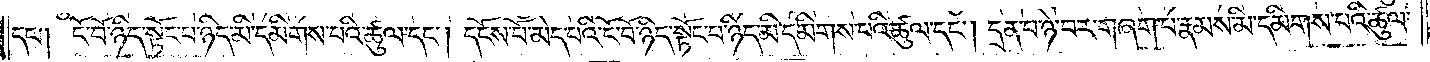དང༌། ངོ་བོ་ཉིད་སྟོང་པ་ཉིད་མི་དམིགས་པའི་ཚུལ་དང༌། དངོས་པོ་མེད་པའི་ངོ་བོ་ཉིད་སྟོང་པ་ཉིད་མི་དམིགས་པའི་ཚུལ་དང༌། དྲན་པ་ཉེ་བར་གཞག་པ་རྣམས་མི་དམིགས་པའི་ཚུལ་
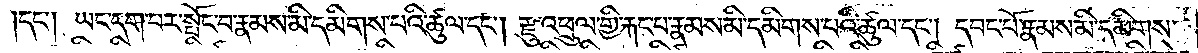དང༌། ཡང་དག་པར་སྤོང་བ་རྣམས་མི་དམིགས་པའི་ཚུལ་དང༌། རྫུ་འཕྲུལ་གྱི་རྐང་པ་རྣམས་མི་དམིགས་པའི་ཚུལ་དང༌། དབང་པོ་རྣམས་མི་དམིགས་
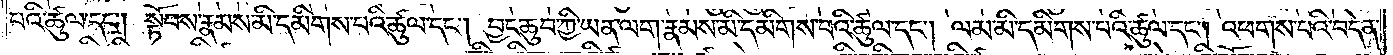པའི་ཚུལ་དང༌། སྟོབས་རྣམས་མི་དམིགས་པའི་ཚུལ་དང༌། བྱང་ཆུབ་ཀྱི་ཡན་ལག་རྣམས་མི་དམིགས་པའི་ཚུལ་དང༌། ལམ་མི་དམིགས་པའི་ཚུལ་དང༌། འཕགས་པའི་བདེན་
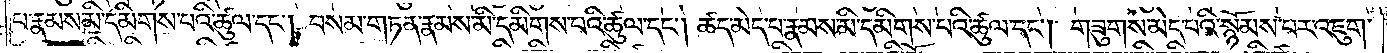པ་རྣམས་མི་དམིགས་པའི་ཚུལ་དང༌། བསམ་གཏན་རྣམས་མི་དམིགས་པའི་ཚུལ་དང༌། ཚད་མེད་པ་རྣམས་མི་དམིགས་པའི་ཚུལ་དང༌། གཟུགས་མེད་པའི་སྙོམས་པར་འཇུག་
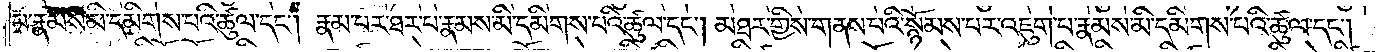པ་རྣམས་མི་དམིགས་པའི་ཚུལ་དང༌། རྣམ་པར་ཐར་པ་རྣམས་མི་དམིགས་པའི་ཚུལ་དང༌། མཐར་གྱིས་གནས་པའི་སྙོམས་པར་འཇུག་པ་རྣམས་མི་དམིགས་པའི་ཚུལ་དང༌།
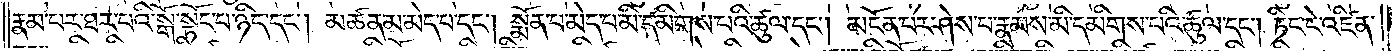རྣམ་པར་ཐར་པའི་སྒོ་སྟོང་པ་ཉིད་དང༌། མཚན་མ་མེད་པ་དང༌། སྨོན་པ་མེད་པ་མི་དམིགས་པའི་ཚུལ་དང༌། མངོན་པར་ཤེས་པ་རྣམས་མི་དམིགས་པའི་ཚུལ་དང༌། ཏིང་ངེ་འཛིན་
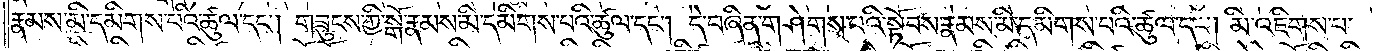རྣམས་མི་དམིགས་པའི་ཚུལ་དང༌། གཟུངས་ཀྱི་སྒོ་རྣམས་མི་དམིགས་པའི་ཚུལ་དང༌། དེ་བཞིན་གཤེགས་པའི་སྟོབས་རྣམས་མི་དམིགས་པའི་ཚུལ་དང༌། མི་འཇིགས་པ་
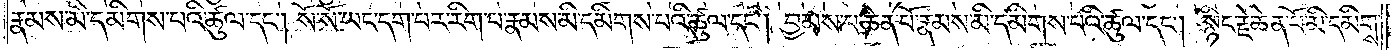རྣམས་མི་དམིགས་པའི་ཚུལ་དང༌། སོ་སོ་ཡང་དག་པར་རིག་པ་རྣམས་མི་དམིགས་པའི་ཚུལ་དང༌། །བྱམས་པ་ཆེན་པོ་རྣམས་མི་དམིགས་པའི་ཚུལ་དང༌། སྙིང་རྗེ་ཆེན་པོ་མི་དམིགས་
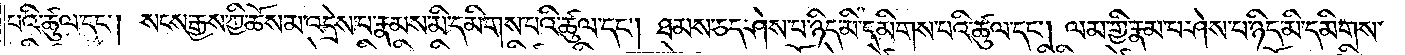པའི་ཚུལ་དང༌། སངས་རྒྱས་ཀྱི་ཆོས་མ་འདྲེས་པ་རྣམས་མི་དམིགས་པའི་ཚུལ་དང༌། ཐམས་ཅད་ཤེས་པ་ཉིད་མི་དམིགས་པའི་ཚུལ་དང༌། ལམ་གྱི་རྣམ་པ་ཤེས་པ་ཉིད་མི་དམིགས་
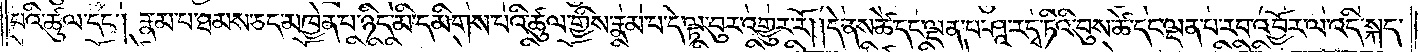པའི་ཚུལ་དང༌། རྣམ་པ་ཐམས་ཅད་མཁྱེན་པ་ཉིད་མི་དམིགས་པའི་ཚུལ་གྱིས་རྣམ་པ་དེ་ལྟ་བུར་འགྱུར་རོ། །དེ་ནས་ཚེ་དང་ལྡན་པ་ཤཱ་ར་དྭ་ཏིའི་བུས་ཚེ་དང་ལྡན་པ་རབ་འབྱོར་ལ་འདི་སྐད་
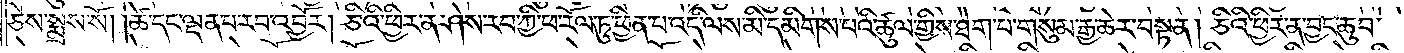ཅེས་སྨྲས་སོ། །ཚེ་དང་ལྡན་པ་རབ་འབྱོར། ཅིའི་ཕྱིར་ན་ཤེས་རབ་ཀྱི་ཕ་རོལ་ཏུ་ཕྱིན་པ་འདི་ལས་མི་དམིགས་པའི་ཚུལ་གྱིས་ཐེག་པ་གསུམ་རྒྱ་ཆེར་བསྟན། ཅིའི་ཕྱིར་ན་བྱང་ཆུབ་
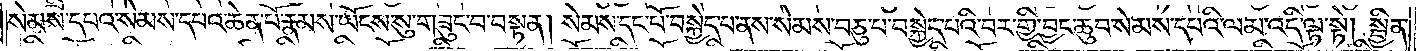སེམས་དཔའ་སེམས་དཔའ་ཆེན་པོ་རྣམས་ཡོངས་སུ་བཟུང་བ་བསྟན། སེམས་དང་པོ་བསྐྱེད་པ་ནས་སེམས་བཅུ་པ་བསྐྱེད་པའི་བར་གྱི་བྱང་ཆུབ་སེམས་དཔའི་ལམ་འདི་ལྟ་སྟེ། སྦྱིན་
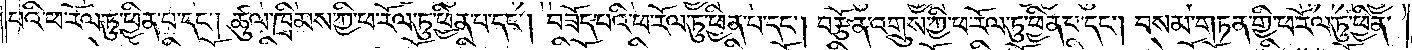པའི་ཕ་རོལ་ཏུ་ཕྱིན་པ་དང༌། ཚུལ་ཁྲིམས་ཀྱི་ཕ་རོལ་ཏུ་ཕྱིན་པ་དང༌། བཟོད་པའི་ཕ་རོལ་ཏུ་ཕྱིན་པ་དང༌། བརྩོན་འགྲུས་ཀྱི་ཕ་རོལ་ཏུ་ཕྱིན་པ་དང༌། བསམ་གཏན་གྱི་ཕ་རོལ་ཏུ་ཕྱིན་
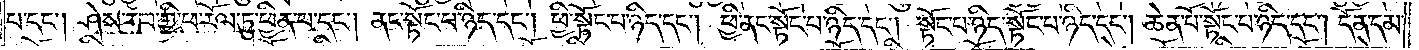པ་དང༌། ཤེས་རབ་ཀྱི་ཕ་རོལ་ཏུ་ཕྱིན་པ་དང༌། ནང་སྟོང་པ་ཉིད་དང༌། ཕྱི་སྟོང་པ་ཉིད་དང༌། ཕྱི་ནང་སྟོང་པ་ཉིད་དང༌། སྟོང་པ་ཉིད་སྟོང་པ་ཉིད་དང༌། ཆེན་པོ་སྟོང་པ་ཉིད་དང༌། དོན་དམ་
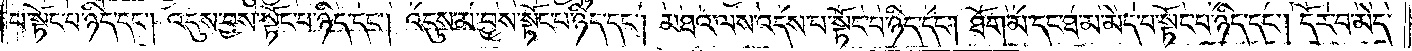པ་སྟོང་པ་ཉིད་དང༌། འདུས་བྱས་སྟོང་པ་ཉིད་དང༌། འདུས་མ་བྱས་སྟོང་པ་ཉིད་དང༌། མཐའ་ལས་འདས་པ་སྟོང་པ་ཉིད་དང༌། ཐོག་མ་དང་ཐ་མ་མེད་པ་སྟོང་པ་ཉིད་དང༌། དོར་བ་མེད་
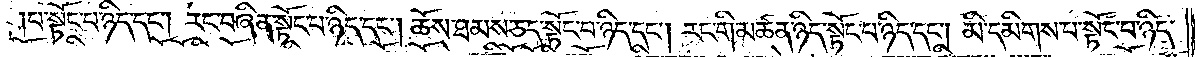པ་སྟོང་པ་ཉིད་དང༌། རང་བཞིན་སྟོང་པ་ཉིད་དང༌། ཆོས་ཐམས་ཅད་སྟོང་པ་ཉིད་དང༌། རང་གི་མཚན་ཉིད་སྟོང་པ་ཉིད་དང༌། མི་དམིགས་པ་སྟོང་པ་ཉིད་
